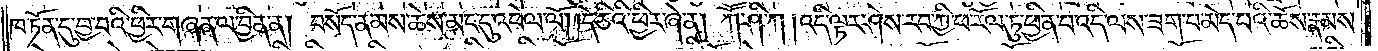ཁ་ཏོན་དུ་བྱ་བའི་ཕྱིར་གཞན་ལ་བྱིན་ན། བསོད་ནམས་ཆེས་མང་དུ་འཕེལ་ལོ། །དེ་ཅིའི་ཕྱིར་ཞེ་ན། ཀཽ་ཤི་ཀ །འདི་ལྟར་ཤེས་རབ་ཀྱི་ཕ་རོལ་ཏུ་ཕྱིན་པ་འདི་ལས་ཟག་པ་མེད་པའི་ཆོས་རྣམས་
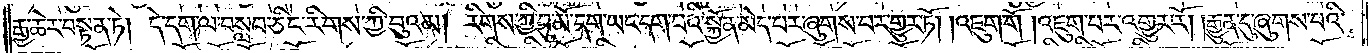རྒྱ་ཆེར་བསྟན་ཏེ། དེ་དག་ལ་བསླབ་ཅིང་རིགས་ཀྱི་བུའམ། རིགས་ཀྱི་བུ་མོ་དག་ཡང་དག་པའི་སྐྱོན་མེད་པར་ཞུགས་པར་གྱུར་ཏོ། །འཇུག་གོ །འཇུག་པར་འགྱུར་རོ། །རྒྱུན་དུ་ཞུགས་པའི་
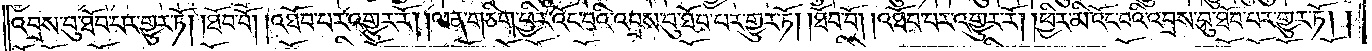འབྲས་བུ་ཐོབ་པར་གྱུར་ཏོ། །ཐོབ་བོ། འཐོབ་པར་འགྱུར་རོ། །ལན་གཅིག་ཕྱིར་འོང་བའི་འབྲས་བུ་ཐོབ་པར་གྱུར་ཏོ། །ཐོབ་བོ། །འཐོབ་པར་འགྱུར་རོ། །ཕྱིར་མི་འོང་བའི་འབྲས་བུ་ཐོབ་པར་གྱུར་ཏོ། །
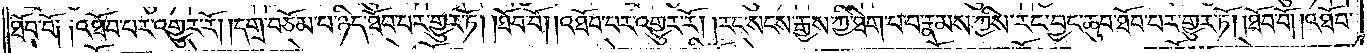ཐོབ་བོ། འཐོབ་པར་འགྱུར་རོ། །དགྲ་བཅོམ་པ་ཉིད་ཐོབ་པར་གྱུར་ཏོ། །ཐོབ་བོ། །འཐོབ་པར་འགྱུར་རོ། །རང་སངས་རྒྱས་ཀྱི་ཐེག་པ་པ་རྣམས་ཀྱིས་རང་བྱང་ཆུབ་ཐོབ་པར་གྱུར་ཏོ། །ཐོབ་བོ། །འཐོབ་
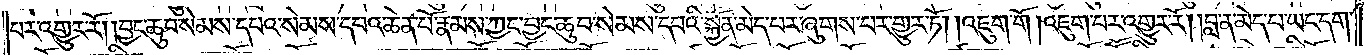པར་འགྱུར་རོ། །བྱང་ཆུབ་སེམས་དཔའ་སེམས་དཔའ་ཆེན་པོ་རྣམས་ཀྱང་བྱང་ཆུབ་སེམས་དཔའི་སྐྱོན་མེད་པར་ཞུགས་པར་གྱུར་ཏོ། །འཇུག་གོ །འཇུག་པར་འགྱུར་རོ། །བླ་ན་མེད་པ་ཡང་དག་
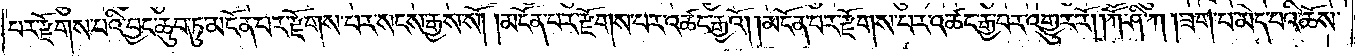པར་རྫོགས་པའི་བྱང་ཆུབ་ཏུ་མངོན་པར་རྫོགས་པར་སངས་རྒྱས་སོ། །མངོན་པར་རྫོགས་པར་འཚང་རྒྱའོ། །མངོན་པར་རྫོགས་པར་འཚང་རྒྱ་བར་འགྱུར་རོ། །ཀཽ་ཤི་ཀ །ཟག་པ་མེད་པའི་ཆོས་
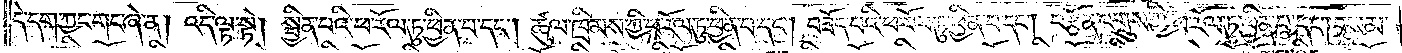དེ་དག་ཀྱང་གང་ཞེ་ན། འདི་ལྟ་སྟེ། སྦྱིན་པའི་ཕ་རོལ་ཏུ་ཕྱིན་པ་དང༌། ཚུལ་ཁྲིམས་ཀྱི་ཕ་རོལ་ཏུ་ཕྱིན་པ་དང༌། བཟོད་པའི་ཕ་རོལ་ཏུ་ཕྱིན་པ་དང༌། བརྩོན་འགྲུས་ཀྱི་ཕ་རོལ་ཏུ་ཕྱིན་པ་དང༌། བསམ་
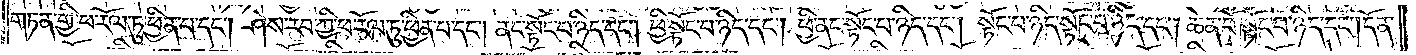གཏན་གྱི་ཕ་རོལ་ཏུ་ཕྱིན་པ་དང༌། ཤེས་རབ་ཀྱི་ཕ་རོལ་ཏུ་ཕྱིན་པ་དང༌། ནང་སྟོང་པ་ཉིད་དང༌། ཕྱི་སྟོང་པ་ཉིད་དང༌། ཕྱི་ནང་སྟོང་པ་ཉིད་དང༌། སྟོང་པ་ཉིད་སྟོང་པ་ཉིད་དང༌། ཆེན་པོ་སྟོང་པ་ཉིད་དང༌། དོན་
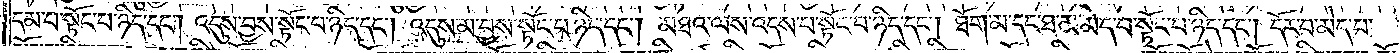དམ་པ་སྟོང་པ་ཉིད་དང༌། འདུས་བྱས་སྟོང་པ་ཉིད་དང༌། འདུས་མ་བྱས་སྟོང་པ་ཉིད་དང༌། མཐའ་ལས་འདས་པ་སྟོང་པ་ཉིད་དང༌། ཐོག་མ་དང་ཐ་མ་མེད་པ་སྟོང་པ་ཉིད་དང༌། དོར་བ་མེད་པ་
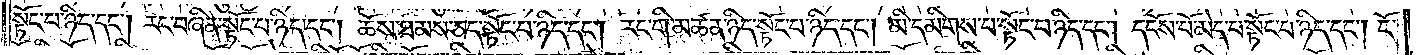སྟོང་པ་ཉིད་དང༌། རང་བཞིན་སྟོང་པ་ཉིད་དང༌། ཆོས་ཐམས་ཅད་སྟོང་པ་ཉིད་དང༌། རང་གི་མཚན་ཉིད་སྟོང་པ་ཉིད་དང༌། མི་དམིགས་པ་སྟོང་པ་ཉིད་དང༌། དངོས་པོ་མེད་པ་སྟོང་པ་ཉིད་དང༌། ངོ་
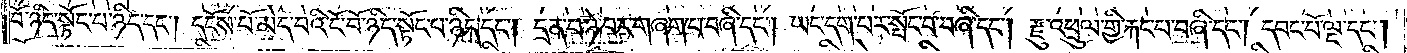བོ་ཉིད་སྟོང་པ་ཉིད་དང༌། དངོས་པོ་མེད་པའི་ངོ་བོ་ཉིད་སྟོང་པ་ཉིད་དང༌། དྲན་པ་ཉེ་བར་གཞག་པ་བཞི་དང༌། ཡང་དག་པར་སྤོང་བ་བཞི་དང༌། རྫུ་འཕྲུལ་གྱི་རྐང་པ་བཞི་དང༌། དབང་པོ་ལྔ་དང༌།
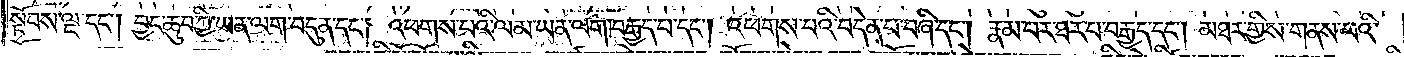སྟོབས་ལྔ་དང༌། བྱང་ཆུབ་ཀྱི་ཡན་ལག་བདུན་དང༌། འཕགས་པའི་ལམ་ཡན་ལག་བརྒྱད་པ་དང༌། འཕགས་པའི་བདེན་པ་བཞི་དང༌། རྣམ་པར་ཐར་པ་བརྒྱད་དང༌། མཐར་གྱིས་གནས་པའི་
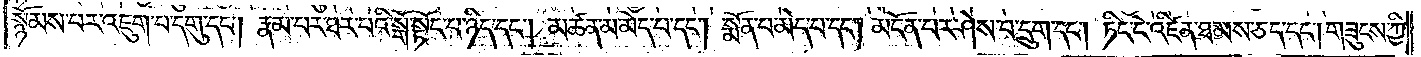སྙོམས་པར་འཇུག་པ་དགུ་དང༌། རྣམ་པར་ཐར་པའི་སྒོ་སྟོང་པ་ཉིད་དང༌། མཚན་མ་མེད་པ་དང༌། སྨོན་པ་མེད་པ་དང༌། མངོན་པར་ཤེས་པ་དྲུག་དང༌། ཏིང་ངེ་འཛིན་ཐམས་ཅད་དང༌། གཟུངས་ཀྱི་
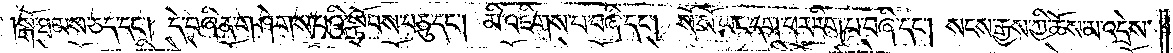སྒོ་ཐམས་ཅད་དང༌། དེ་བཞིན་གཤེགས་པའི་སྟོབས་བཅུ་དང༌། མི་འཇིགས་པ་བཞི་དང༌། སོ་སོ་ཡང་དག་པར་རིག་པ་བཞི་དང༌། སངས་རྒྱས་ཀྱི་ཆོས་མ་འདྲེས་
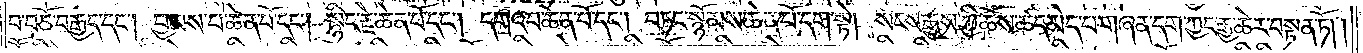པ་བཅོ་བརྒྱད་དང༌། བྱམས་པ་ཆེན་པོ་དང༌། སྙིང་རྗེ་ཆེན་པོ་དང༌། དགའ་བ་ཆེན་པོ་དང༌། བཏང་སྙོམས་ཆེན་པོ་དག་སྟེ། སངས་རྒྱས་ཀྱི་ཆོས་ཚད་མེད་པ་གཞན་དག་ཀྱང་རྒྱ་ཆེར་བསྟན་ཏོ། །
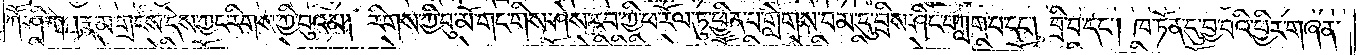ཀཽ་ཤི་ཀ །རྣམ་གྲངས་དེས་ཀྱང་རིགས་ཀྱི་བུའམ། རིགས་ཀྱི་བུ་མོ་གང་གིས་ཤེས་རབ་ཀྱི་ཕ་རོལ་ཏུ་ཕྱིན་པ་གླེགས་བམ་དུ་བྲིས་ཤིང་བཀླག་པ་དང༌། བྲི་བ་དང༌། ཁ་ཏོན་དུ་བྱ་བའི་ཕྱིར་གཞན་
